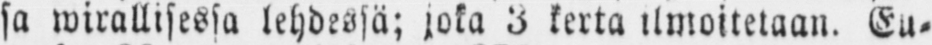sa wirallisessa lehdessä; joka 3 kerta ilmoitetaan. Eu-
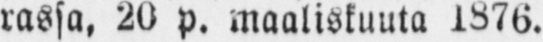rassa, 20 p. maaliskuuta 1876.
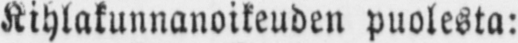Kihlakunnanoikeuden puolesta:
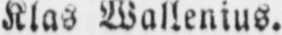Klas Wallenius.
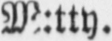M:tty.
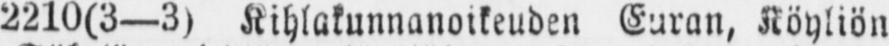2210(3 —3) Kihlakunnanoikeuden Euran, Köyliön
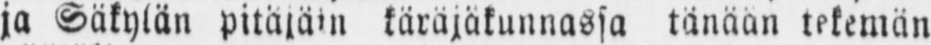ja Säkylän pitäjäin käräjäkunnassa tänään tekemän
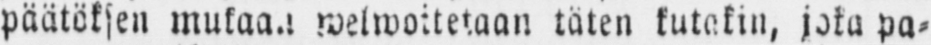päätöksen mukaan welwoitetaan täten kutakin, joku pa-
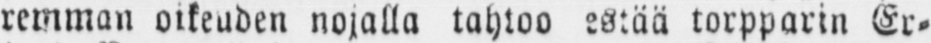remman oikeuden nojalla tahtoo estää torpparin Er-
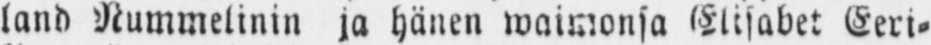land Nummelinin ja hänen waimonsa Elisabet Eeri-
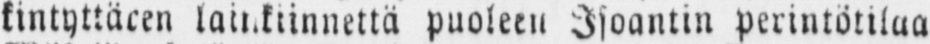kintyttäcen lainkiinnettä puoleen Isoantin perintötilaa
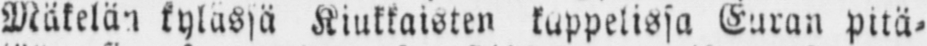Mäkelän kylässä Kiukkaisten kappelissa Euran pitä-
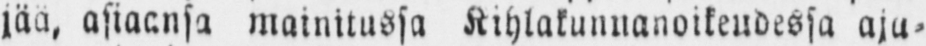jää, asiaansa mainitussa Kihlakunnanoikeudessa aja-
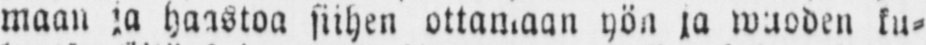maan ja haastoa siihen ottamaan yön ja wuoden ku-
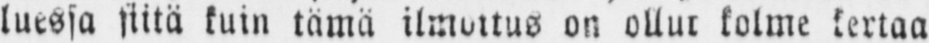luessa siitä kuin tämä ilmottus on ollut kolme kertaa
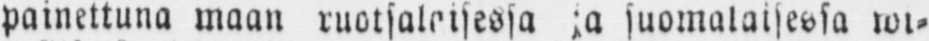painettuna maan ruotsalaisessa ja suomalaisessa wi-
